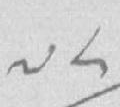༧༨
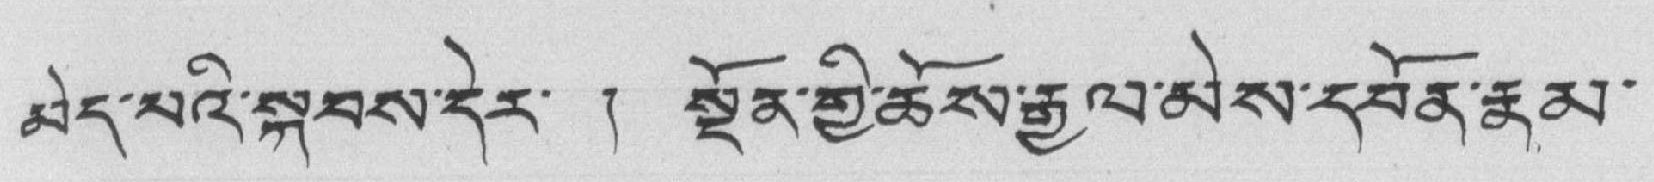མེད་པའི་སྐབས་དེར་ ། སྔོན་གྱི་ཆོས་རྒྱལ་མེས་དབོན་རྣམ་
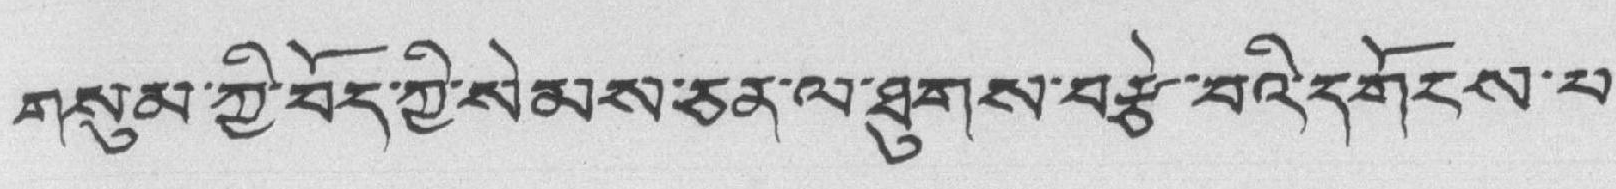གསུམ་ཀྱི་བོད་ཀྱི་སེམས་ཅན་ལ་ཐུགས་བརྩེ་བའི་དགོངས་པ་
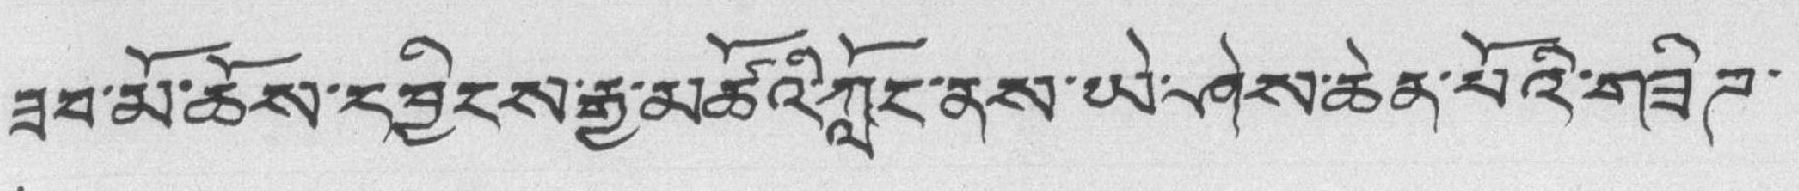ཟབ་མོ་ཆོས་དབྱིངས་རྒྱ་མཚོའི་ཀློང་ནས་ཡེ་ཤེས་ཆེན་པོའི་གཟིཊ་
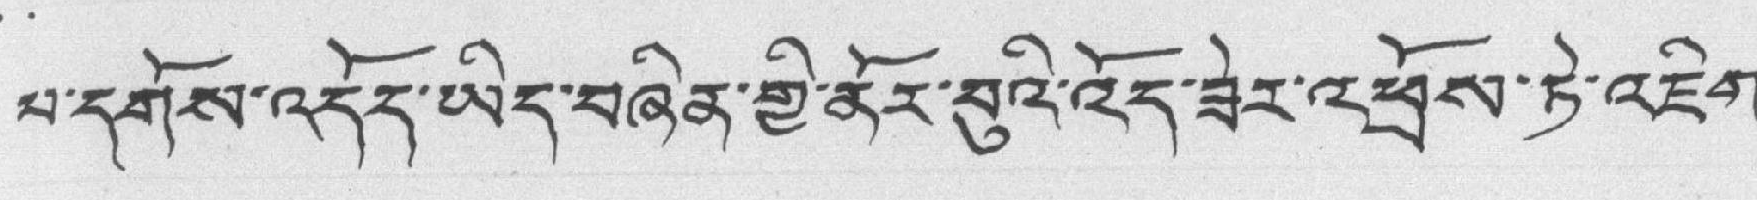པ་དགོས་འདོད་ཡིད་བཞིན་གྱི་ནོར་བུའི་འོད་ཟེར་འཕྲོས་ཏེ་འཇིག་
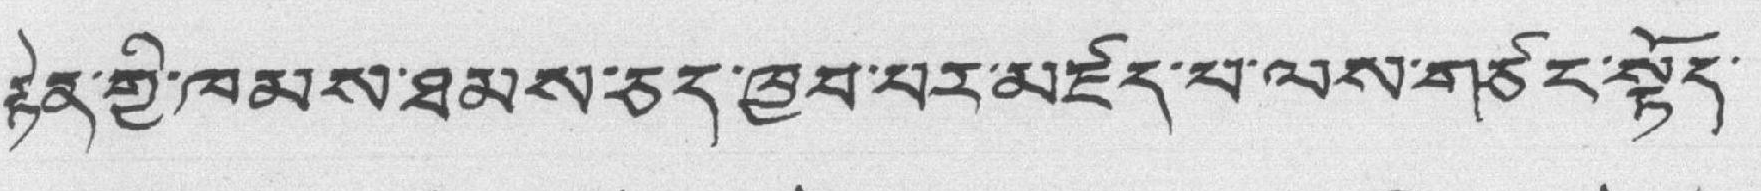རྟེན་གྱི་ཁམས་ཐམས་ཅད་ཁྱབ་པར་མཛད་པ་ལས་གཙང་སྟོད་
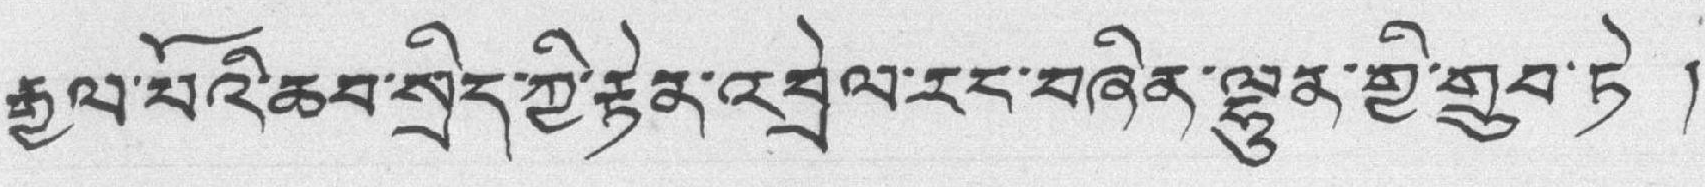རྒྱལ་པོའི་ཆབ་སྲིད་ཀྱི་རྟེན་འབྲེལ་རང་བཞིན་ལྷུན་གྱི་གྲུབ་ཏེ །
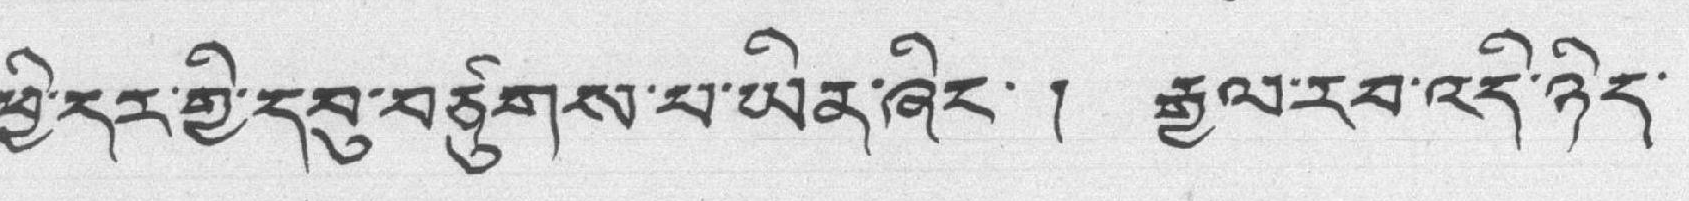ཕྱི་དར་གྱི་དབུ་བཙུགས་པ་ཡིན་ཞིང་ ། རྒྱལ་རབ་འདི་ཉིད་
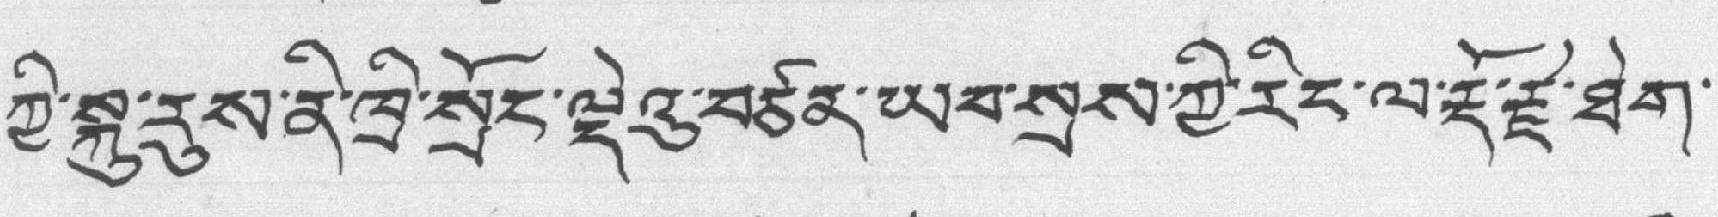ཀྱི་སྐུ་རུས་ནི་ཁྲི་སྲོང་ལྡེའུ་བཙན་ཡབ་སྲས་ཀྱི་རིང་ལ་རྡོ་རྗེ་ཐེག་
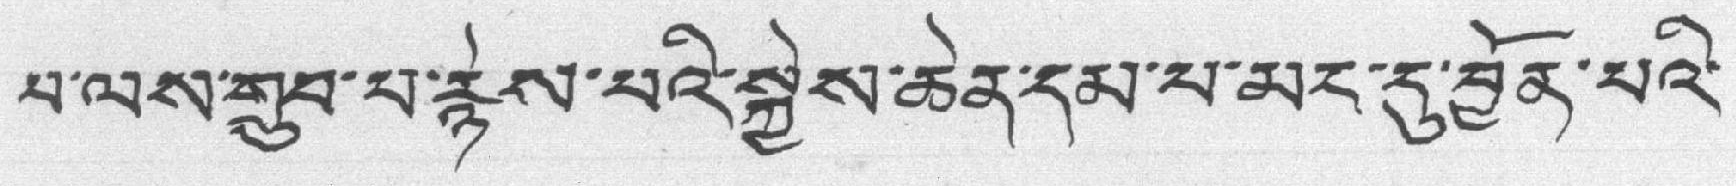པ་ལས་གྲུབ་པ་རྙེས་པའི་སྐྱེས་ཆེན་དམ་པ་མང་དུ་བྱོན་པའི་
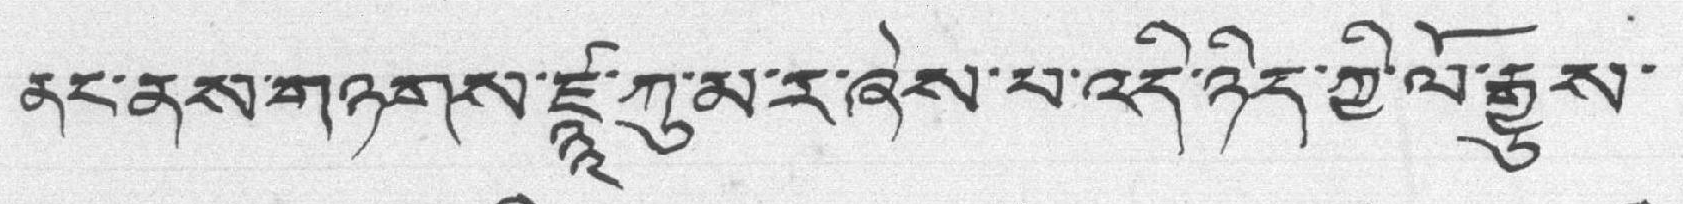ནང་ནས་གཉགས་ཛྙཱ་ཀུ་མ་ར་ཞེས་པ་འདི་ཉིད་གྱི་ལོ་རྒྱུས་
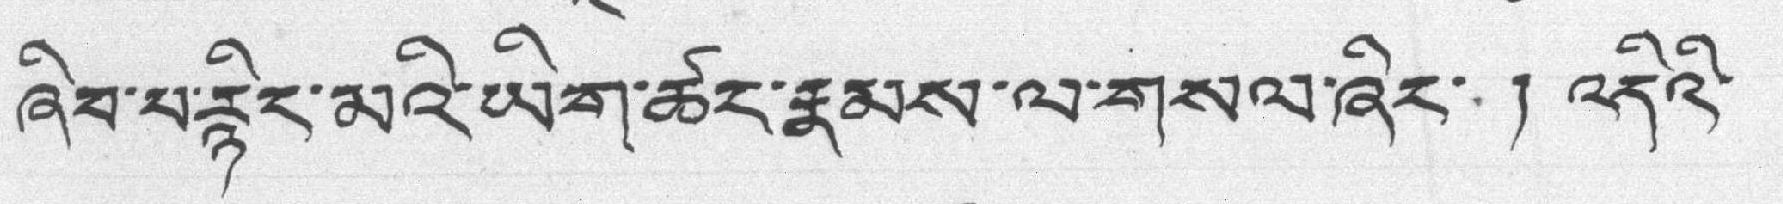ཞིབ་པ་རྙིང་མའི་ཡིག་ཚང་རྣམས་ལ་གསལ་ཞིང་ ། འདིའི་
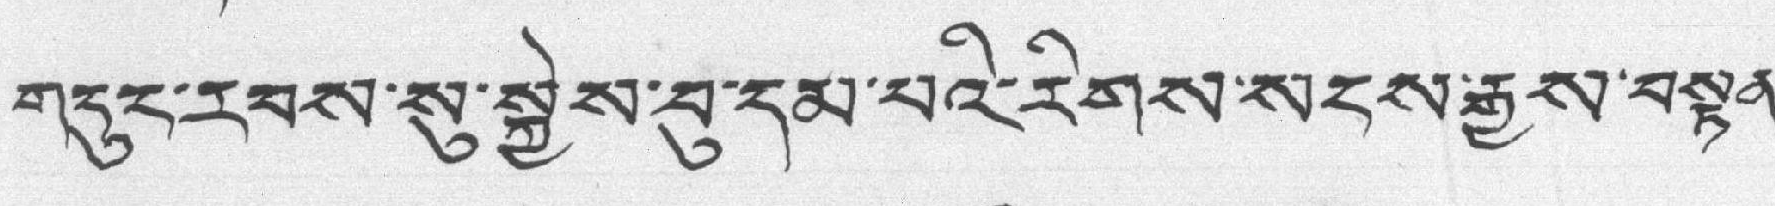གདུང་རབས་སུ་སྐྱེས་བུ་དམ་པའི་རིགས་སངས་རྒྱས་བསྟན་
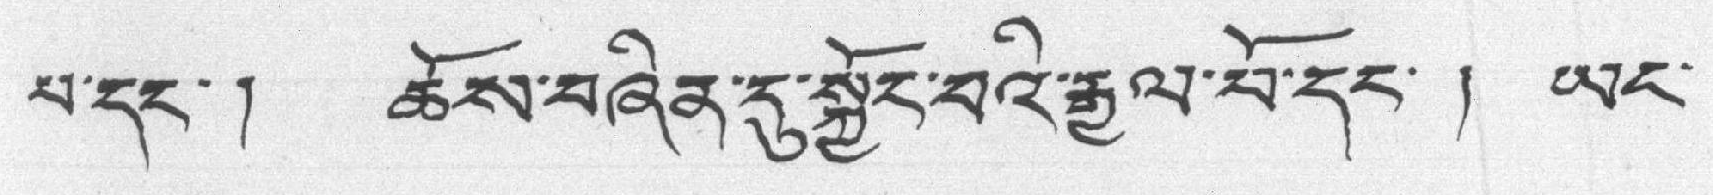པ་དང་། ཆོས་བཞིན་དུ་སྐྱོང་བའི་རྒྱལ་པོ་དང་། ཡང་
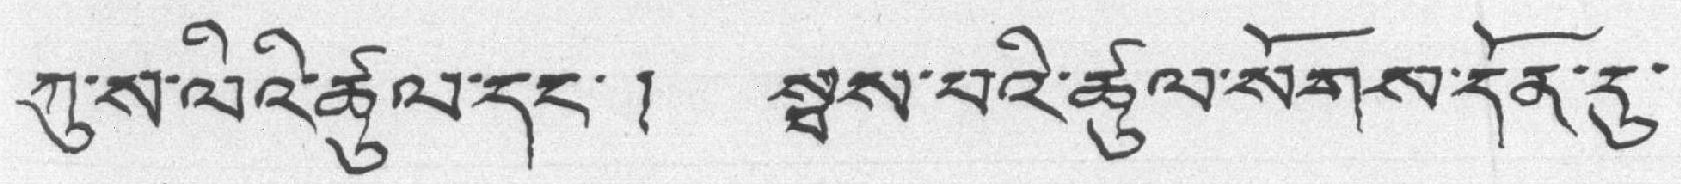ཀུ་ས་ལིའི་ཚུལ་དང་། སྦས་པའི་ཚུལ་སོགས་དོན་དུ་
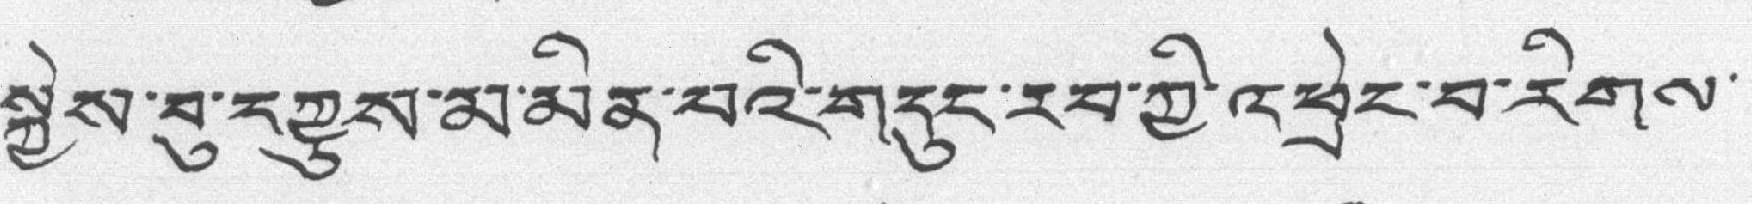སྐྱེས་བུ་དཀྱུས་མ་མིན་པའི་གདུང་རབ་ཀྱི་འཕྲེང་བ་རིགས་
